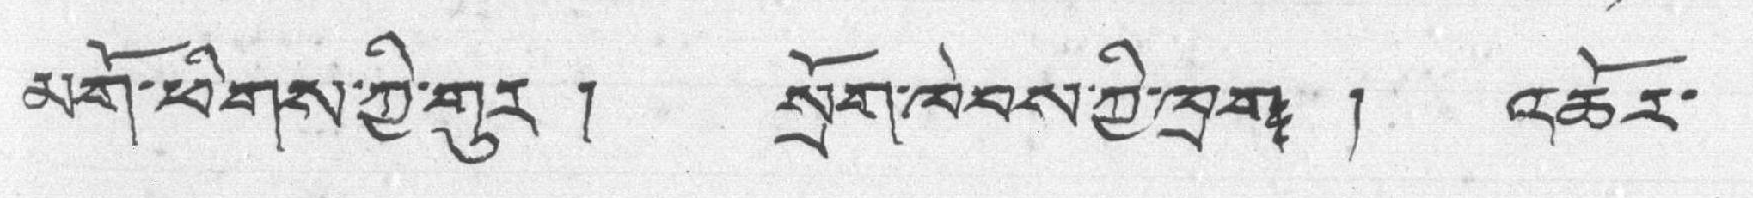མགོ་ཕིགས་ཀྱི་གུར ། སྲོག་ལེབས་ཀྱི་ཁྲག ། འཆོར་
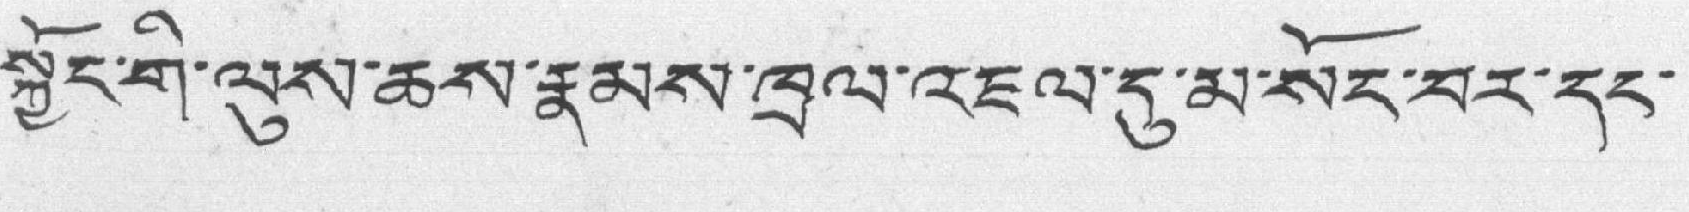སྐྱོང་ིག་ལུས་ཆས་རྣམས་ཁྲལ་འཇལ་དུ་མ་སོང་བར་དང་
